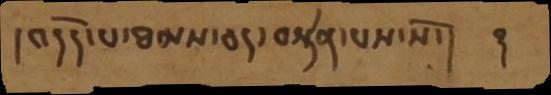།འདོད་པ་ཐམས་ཅད་བསྟེན་པས་སོ་།     ࿑
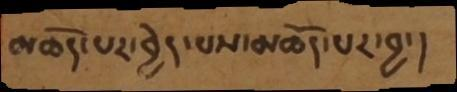མཆོད་པར་བྱེད་པས་མཆོད་པར་བྱ་།
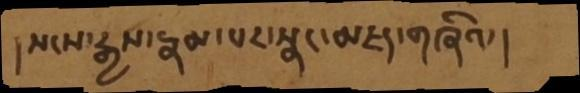།སངས་རྒྱས་རྣམ་པར་སྣང་མཛད་གཞིའ་།
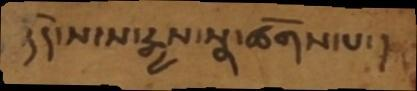།དེ་སངས་རྒྱས་སྣ་ཚོགས་པ་།
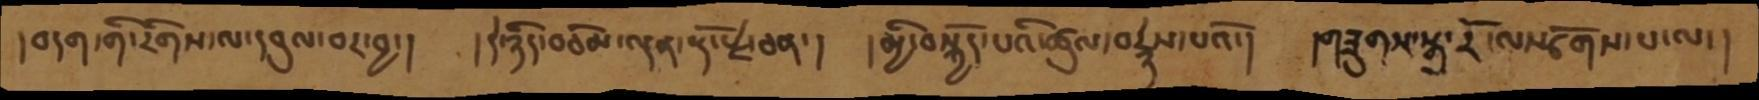།བདག་གི་རིགས་ལ་དབུལ་བར་བྱ་།   །དེ་ཉིད་བཅོམ་ལྡན་རྡོ་རྗེ་ཅན་།  །མྱི་བསྐྱོད་པའི་ཚུལ་བརྙེས་པའོ་།   །གཟུགས་སྒྲ་རོ་ལསྩོགས་པ་ལ་།
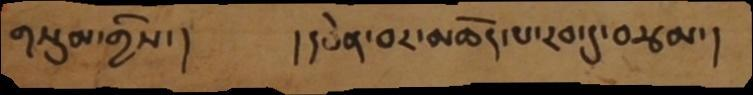གསུམ་གྱིས་།       །དབེན་བར་མཆོད་པ་རབ་དུ་བརྩམ་།
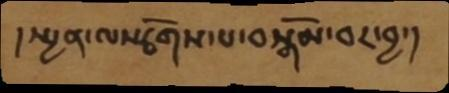།སྤྱན་ལསྩོགས་པ་བསྒོམ་བར་བྱ་།
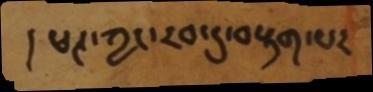།ཕཊ་ཀྱང་རབ་ཏུ་བརྟག་པར་
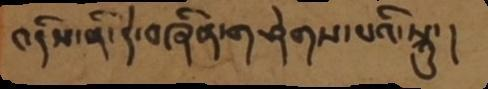འདིས་ནི་དེ་བཞིན་གཤེགས་པའི་སྐུ་།
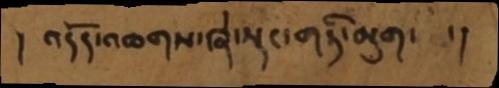།  འདོད་འཆགས་ཞེ་སྡང་གཏི་མུག་  ་།
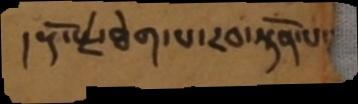།རྡོ་རྗེ་ཐེག་པ་རབ་སྟོན་པ་
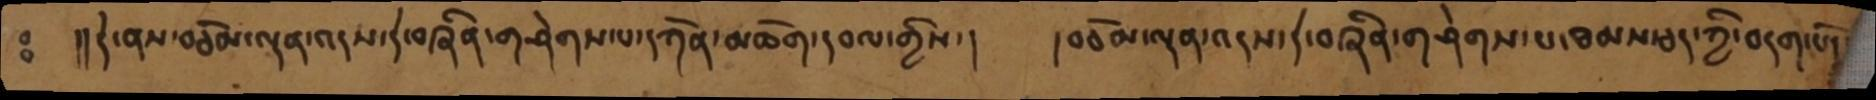ཿ    །།དེ་ནས་བཅོམ་ལྡན་འདས་དེ་བཞིན་གཤེགས་པ་དཀོན་མཆོག་དབལ་གྱིས་།    །བཅོམ་ལྡན་འདས་དེ་བཞིན་གཤེགས་པ་ཐམས་ཅད་ཀྱི་བདག་པོ་
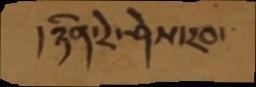།ཉིན་རེ་ཤེས་རབ་
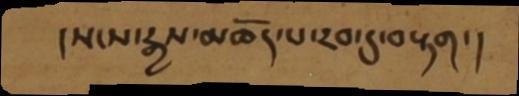།སངས་རྒྱས་མཆོད་པ་རབ་དུ་བརྟག་།
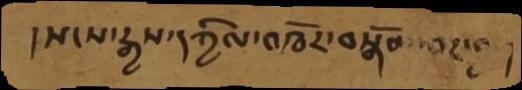།སངས་རྒྱས་དཀྱིལ་འཁོར་བསྒོམ་བར་བྱ་།
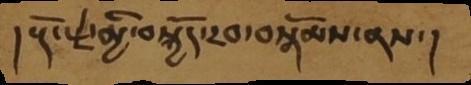།རྡོ་རྗེ་མྱི་བསྐྱོད་རབ་བསྒོམས་ནས་།
